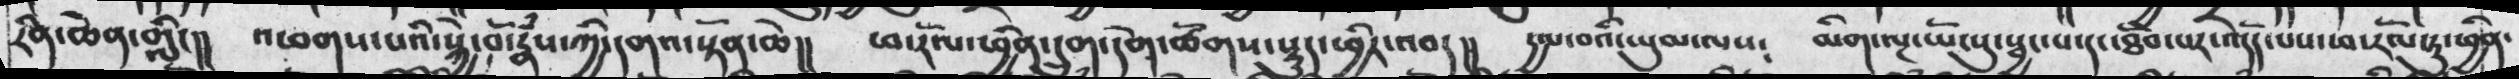རིན་ཆེན་གླིང།། འཕགས་པའི་སྐྱེ་བོ་རྣཾས་ཀྱི་དགའ་སྟོན་ཆེ།། ཕ་རོལ་ཕྱིན་དྲུག་དགེ་ཚོགས་སྡུད་ཕྱིར་འབད།། དྱལ་བའི་ཡུམ་ལས༴ མིག་ལྔ་ཡོངསུ་སྦྱང་པ་དང་ཐིབ་པར་འདོད་པས་ཕ་རོལ་ཏུ་ཕྱིན་
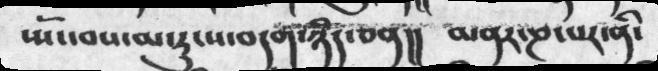ཡོང་བས་མ་རུངས་བདག་ཉིད་ཅན།།   མནར་ཎ་པར་ནི་
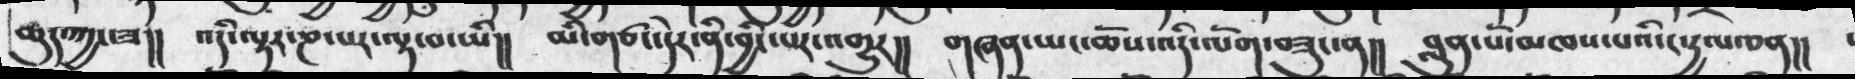ཆུད་ཀྱང་ཟ།།  འདི་ལྟར་ཎ་པར་ལྟ་བ་ཡི།།   མི་གཙང་དེར་ནི་བྱིང་པར་འགྱུར།།    གཞནཡང་ཆོས་འདི་ལོག་བཟུང་ན།།    བླུན་པོ་མཁས་པའི་ང་རྱལ་ཅན།།
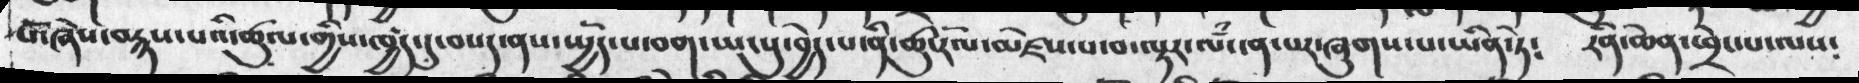སོ་ཞེས་བརྙས་པའི་ཚུལ་གྱིས་ཁྱད་དུ་བསད་ནས་ཡྱོད་པ་བག་ཡངསུ་བྱེད་པ་ནི་ཚུ་རོལ་མཛེས་པ་ལྟར་ལྃ་ངན་པར་ཞུགས་པ་ཡིན་ཏེ༴   རིན་ཆེན་ཕྲེང་པ་ལས༴
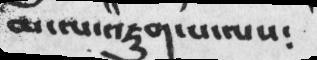མ་ལ་འཇུག་པ་ལས༴
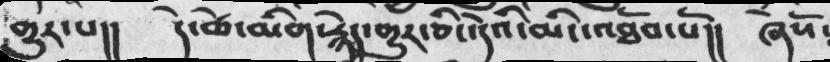གྱུར་པ།།    དེ་ཚེ་མིག་རྙེད་གྱུར་ཅིང་དེའི་མིང་འཐོབ་པོ།།    ཞེསོ༴
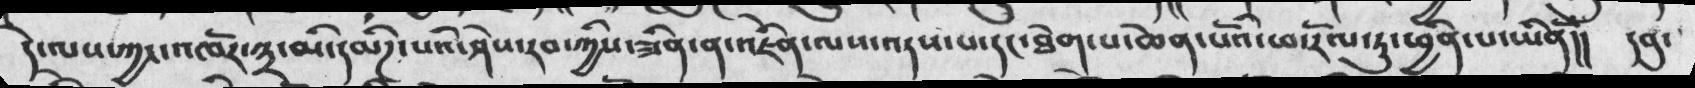དེ་ལས་ཀྱང་འཁོར་༣་མི་དམིཌ་པའི་ཤེས་རབ་ཀྱིས་ཟིན་ན་འཇིེན་ལས་འདས་པ་དང་ཐེག་པ་ཆེན་པོའི་ཕ་རོལ་ཏུ་ཕྱིན་པ་ཡིནོ།།    དབུ་
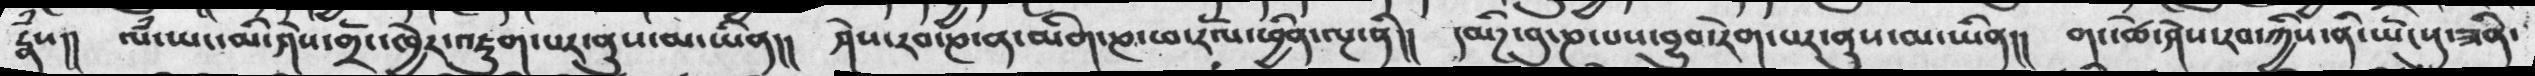རྣྃས།།   ལྃ་ཡང་མི་ཤེས་གྲོང་ཁྱེར་འཇུག་པར་ནུས་མ་ཡིན།།   ཤེས་རབ་ཎ་ན་མིག་ཎ་ཕ་རོལ་ཕྱིན་ལྔ་ནི།།   དམིཌ་བུ་ཎ་པས་བྱུབ་རེག་པར་ནུས་མ་ཡིན།།  གང་ཚེ་ཤེས་རབ་ཀྱིས་ནི་ཡོངསུ་ཟིན་
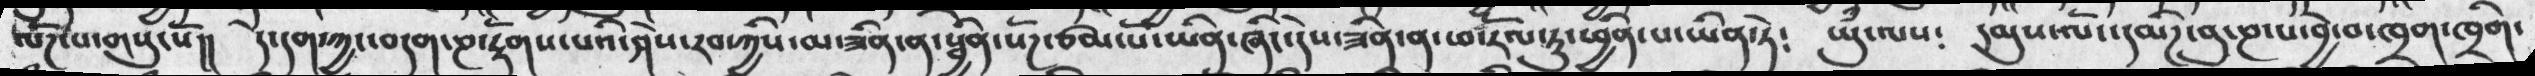ལོཌ་པ་གསུངསོ།།   དེ་དག་ཀྱང་བདག་ཎ་རྟོགས་པའི་ཤེས་རབ་ཀྱིས་མ་ཟིན་ན་སྦྱིན་སོཌ་ཙམ་པོ་ཡིན་ཞིང་དེས་ཟིན་ན་ཕ་རོལ་ཏུ་ཕྱིན་པ་ཡིན་ཏེ༴  ཡུཾ་ལས༴    དམུས་ལོང་དམིཌ་བུ་ཎ་པ་བྱེ་བ་ཁྲག་ཁྲིག་
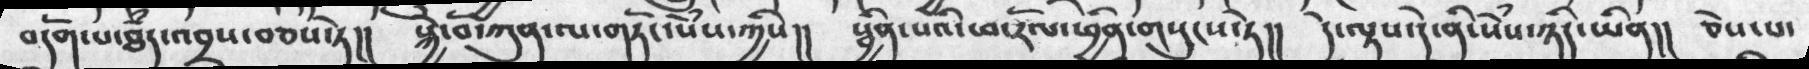བདོག་པ་ཐྃད་འབྲས་བཅས་ཏེ།།    སྐྱེ་བོ་ཀུན་ལ་གཏོང་སེཾས་ཀྱིས།།   སྦྱིན་པའི་ཕ་རོལ་ཕྱིན་གསུངས་ཏེ།།    དེ་ལྟས་དེ་ནི་སེསྃ་ཉིད་ཡིན།།    ཅེས་པ་
